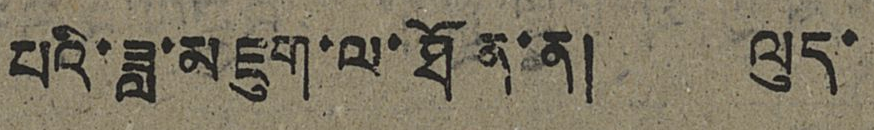པའི་ཟླ་མཇུག་ལ་ཐོན་ན། ལུད་
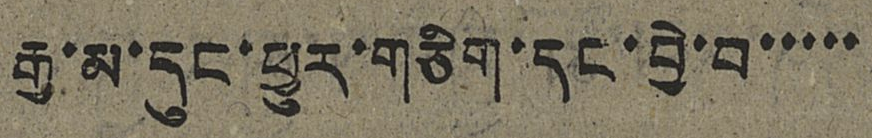རྒྱ་མ་དུང་ཕྱུར་གཅིག་དང་བྱེ་བ་་་་་
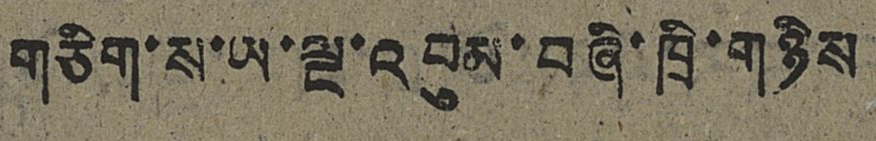གཅིག་ས་ཡ་ལྔ་འབུམ་བཞི་ཁྲི་གཉིས
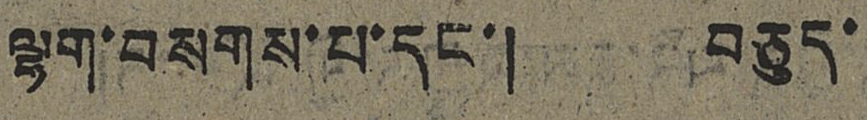ལྷག་བསགས་པ་དང་། བཅུད་
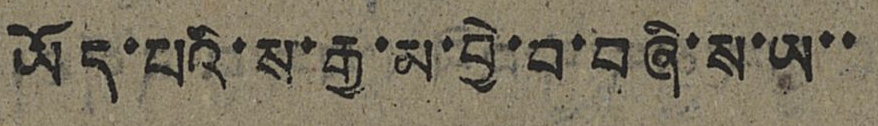ཡོད་པའི་ས་རྒྱ་མ་བྱེ་བ་བཞི་ས་ཡ་་
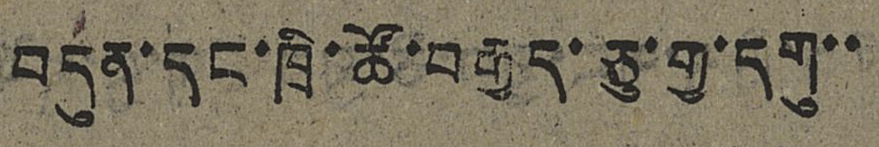བདུན་དང་ཁྲི་ཚོ་བརྒྱད་ཅུ་གྱ་དགུ་་
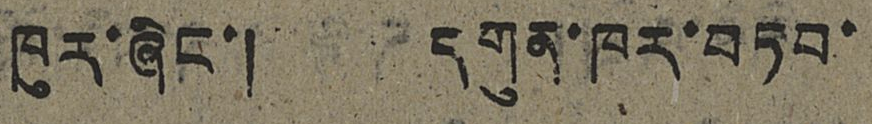ཁུར་ཞིང་། དགུན་ཁར་བཏབ་
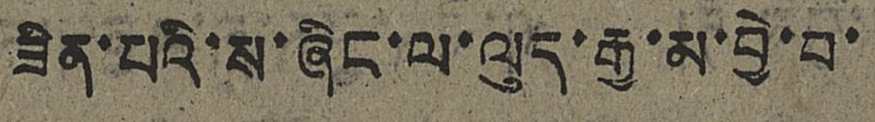ཟིན་པའི་ས་ཞིང་ལ་ལུད་རྒྱ་མ་བྱེ་བ་
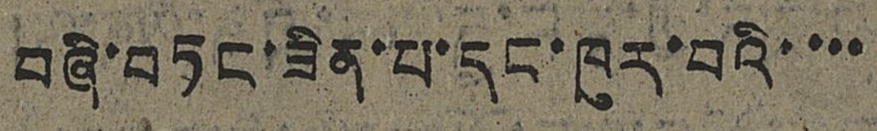བཞི་བཏང་ཟིན་པ་དང་ཁུར་བའི་་་་
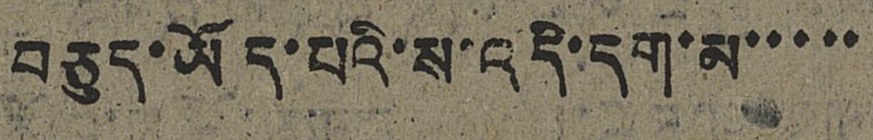བཅུད་ཡོད་པའི་ས་འདི་དག་མ་་་་་
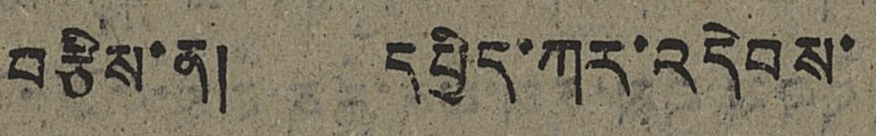བརྩིས་ན། དཔྱིད་ཀར་འདེབས་
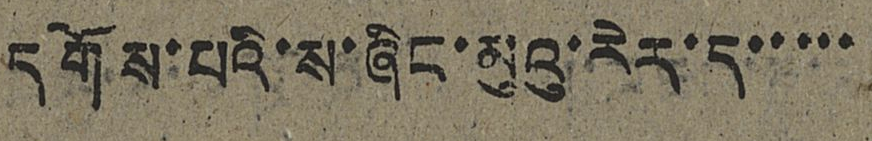དགོས་པའི་ས་ཞིང་མུའུ་རེར་ད་་་་་
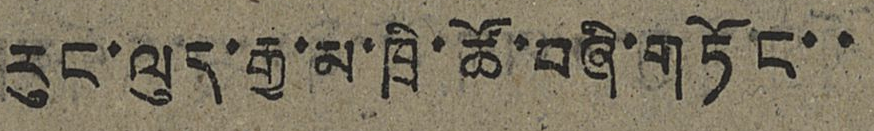རུང་ལུད་རྒྱ་མ་ཁྲི་ཚོ་བཞི་གཏོང་་
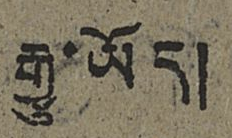རྒྱུ་ཡོད།
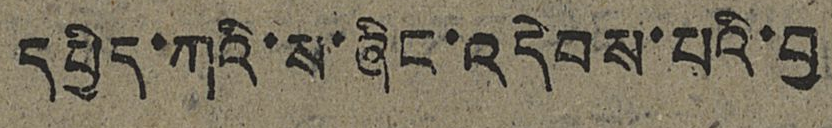དཔྱིད་ཀའི་ས་ཞིང་འདེབས་པའི་བྱ
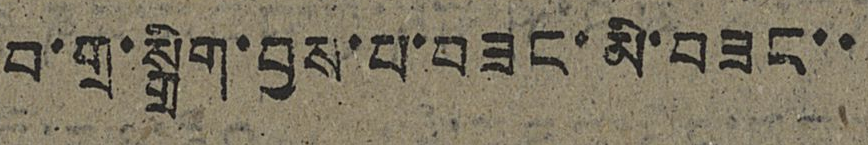བ་གྲ་སྒྲིག་བྱས་པ་བཟང་མི་བཟང་་
